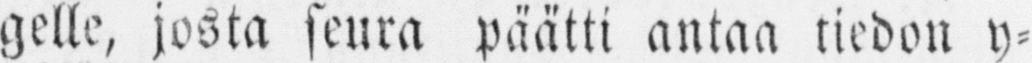gelle, josta seura päätti antaa tiedøn y-
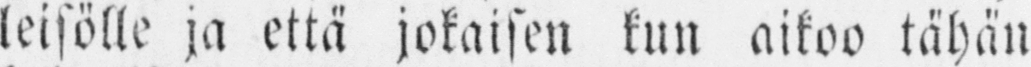leisölle ja että jokaisen kun aikoo tähän
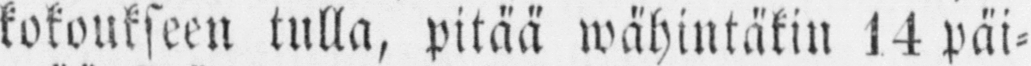kokoukseen tulla, pitää wähintäkin 14 päi-
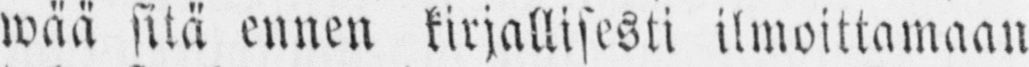wää sitä ennen kirjallisesti ilmoittamaan
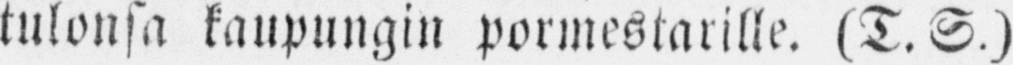tulonsa kaupungin pormestarille. (T. S.)
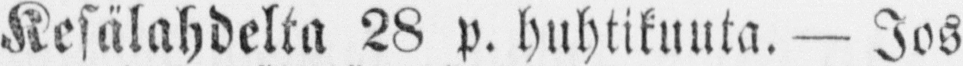Kesälahdelta 28 p. huhtikuuta. — Jos
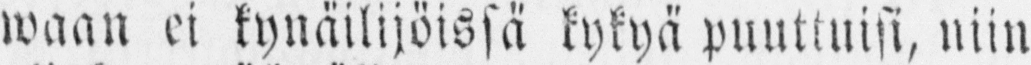waan ei kynäilijöissä kykyä puuttuisi, niin
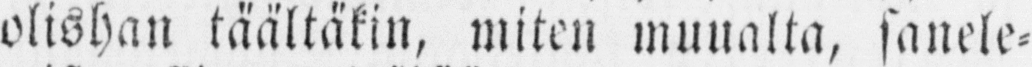olishan täältäkin, miten muualta, sanele-
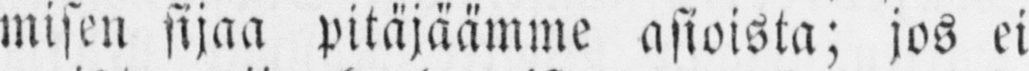misen sijaa pitäjäämme asioista; jos ei
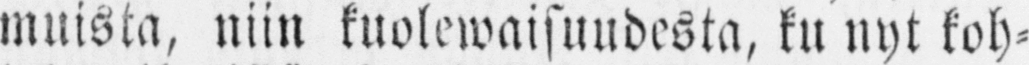muista, niin kuolewaisnudesta, ku nyt koh-
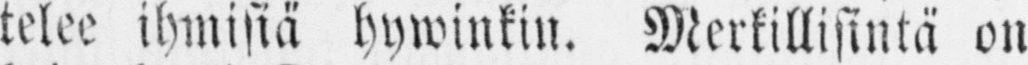telee ihmisiä hywinkin. Merkillisintä on
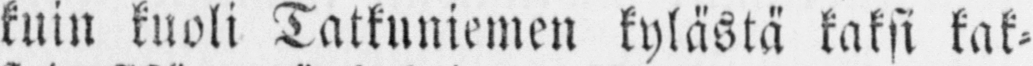kuin kuoli Tatkuniemen kylästä kaksi kak-
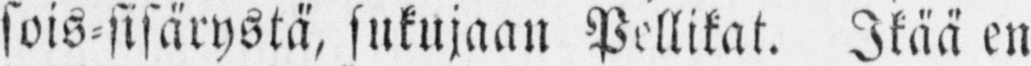sois-sisärystä, sukujaan Pellikat. Ikää en
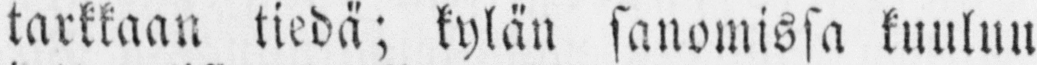tarkkaan tiedä; kylän sanomissa kuuluu
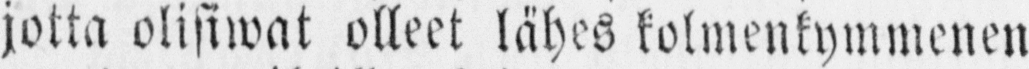jotta olisiwat olleet lähes kolmenkymmenen
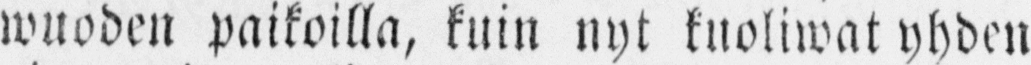wuoden paikoilla, kuin nyt kuoliwat yhden
